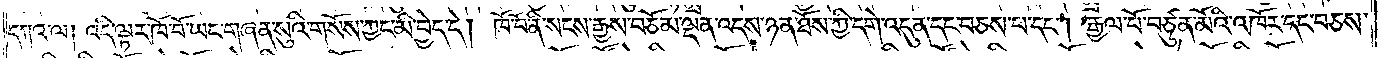དཀའ་ལ། འདི་ལྟར་ཁོ་བོ་ཡང་གཞན་སུའི་གསོས་ཀྱང་མི་བྱེད་དེ། ཁོ་བོ་ནི་སངས་རྒྱས་བཅོམ་ལྡན་འདས་ཉན་ཐོས་ཀྱི་དགེ་འདུན་དང་བཅས་པ་དང༌། རྒྱལ་པོ་བཙུན་མོའི་འཁོར་དང་བཅས་
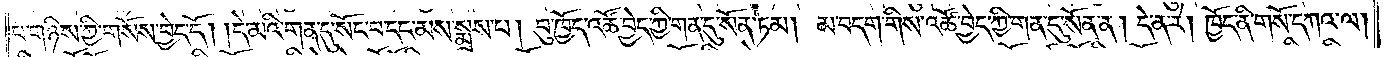པ་གཉིས་ཀྱི་གསོས་བྱེད་དོ། །དེ་མའི་གན་དུ་སོང་བ་དང་མས་སྨྲས་པ། བུ་ཁྱོད་འཚོ་བྱེད་ཀྱི་གན་དུ་སོན་ཏམ། མ་བདག་གིས་འཚོ་བྱེད་ཀྱི་གན་དུ་སོན་ན། དེ་ན་རེ། ཁྱོད་ནི་གསོ་དཀའ་ལ།
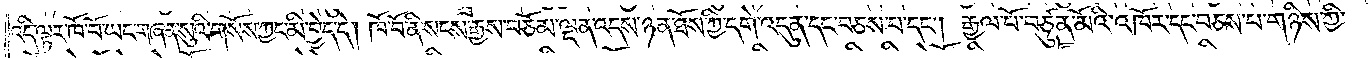འདི་ལྟར་ཁོ་བོ་ཡང་གཞན་སུའི་གསོས་ཀྱང་མི་བྱེད་དེ། ཁོ་བོ་ནི་སངས་རྒྱས་བཅོམ་ལྡན་འདས་ཉན་ཐོས་ཀྱི་དགེ་འདུན་དང་བཅས་པ་དང༌། རྒྱལ་པོ་བཙུན་མོའི་འཁོར་དང་བཅས་པ་གཉིས་ཀྱི་
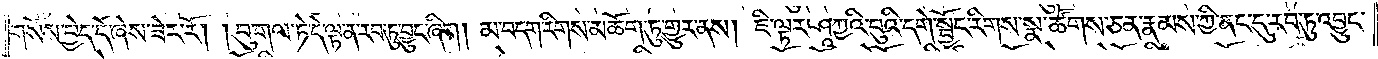གསོས་བྱེད་དོ་ཞེས་ཟེར་རོ། །བུ་གལ་ཏེ་དེ་ལྟ་ན་རབ་ཏུ་བྱུང་ཞིག། མ་བདག་རིགས་མཆོག་ཏུ་གྱུར་ནས། ཇི་ལྟར་ཤཱཀྱའི་བུའི་དགེ་སྦྱོང་རིགས་སྣ་ཚོགས་ཅན་རྣམས་ཀྱི་ནང་དུ་རབ་ཏུ་འབྱུང་
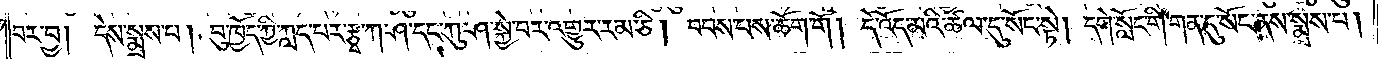བར་བྱ། དེས་སྨྲས་པ། བུ་ཁྱོད་ཀྱི་ཀླད་པར་རྩྭ་ཀ་ཤ་དང་ཀུ་ཤ་སྐྱེ་བར་འགྱུར་རམ་ཅི། བབས་པས་ཆོག་གོ། དེ་འོད་མའི་ཚལ་དུ་སོང་སྟེ། དགེ་སློང་གི་གན་དུ་སོང་ནས་སྨྲས་པ།
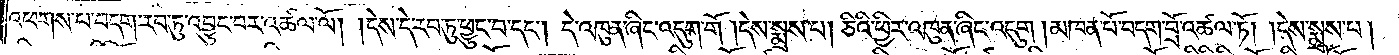འཕགས་པ་བདག་རབ་ཏུ་འབྱུང་བར་འཚལ་ལོ། །དེས་དེ་རབ་ཏུ་ཕྱུང་བ་དང༌། དེ་འཁུན་ཞིང་འདུག་གོ །དེས་སྨྲས་པ། ཅིའི་ཕྱིར་འཁུན་ཞིང་འདུག །མཁན་པོ་བདག་བྲོ་འཚལ་ཏོ། །དེས་སྨྲས་པ།
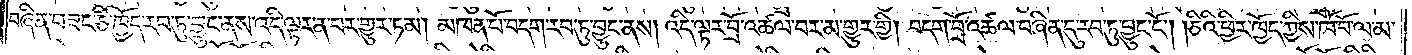བཞིན་བཟང་ཅི་ཁྱོད་རབ་ཏུ་བྱུང་ནས་འདི་ལྟར་ན་པར་གྱུར་ཏམ། མཁན་པོ་བདག་རབ་ཏུ་བྱུང་ནས། འདི་ལྟར་བྲོ་འཚལ་བར་མ་གྱུར་གྱི། བདག་བྲོ་འཚལ་བཞིན་དུ་རབ་ཏུ་བྱུང་ངོ༌། །ཅིའི་ཕྱིར་ཁྱོད་ཀྱིས་ཁོ་བོ་ལ་མ་
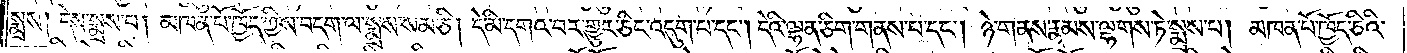སྨྲས། དེས་སྨྲས་པ། མཁན་པོ་ཁྱོད་ཀྱིས་བདག་ལ་སྨྲས་སམ་ཅི། དེ་མི་དགའ་བར་གྱུར་ཅིང་འདུག་པ་དང༌། དེའི་ལྷན་ཅིག་གནས་པ་དང༌། ཉེ་གནས་རྣམས་ལྷགས་ཏེ་སྨྲས་པ། མཁན་པོ་ཁྱོད་ཅིའི་
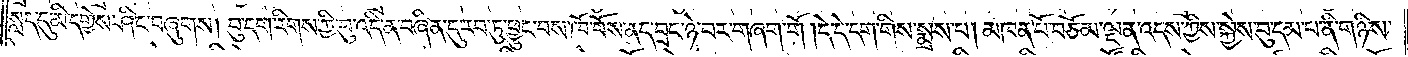སླད་དུ་མི་དགྱེས་ཤིང་བཞུགས། བུ་དག་རིགས་ཀྱི་བུ་འདི་ན་བཞིན་དུ་རབ་ཏུ་ཕྱུང་བས་ཁོ་བོས་ནད་བྲང་ཉེ་བར་གཞག་གོ །དེ་དེ་དག་གིས་སྨྲས་པ། མཁན་པོ་བཅོམ་ལྡན་འདས་ཀྱིས་སྐྱེས་བུ་དམ་པ་ནི་གཉིས་
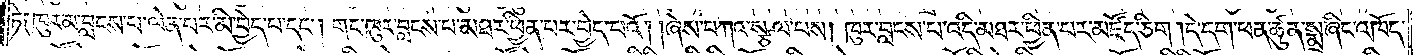ཏེ༑ ཁུར་མ་བླངས་པ་ལེན་པར་མི་བྱེད་པ་དང༌། གང་ཁུར་བླངས་པ་མཐར་ཕྱིན་པར་བྱེད་པའོ། །ཞེས་བཀའ་སྩལ་པས། ཁུར་བླངས་པ་འདི་མཐར་ཕྱིན་པར་མཛོད་ཅིག །དེ་དག་ཕན་ཚུན་སྨྲ་ཞིང་འཁོད་
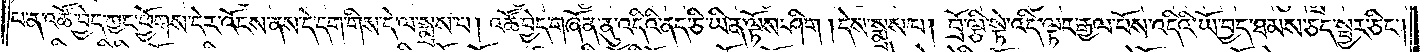པ་ན་འཚོ་བྱེད་ཀྱང་ཕྱོགས་དེར་འོངས་ནས་དེ་དག་གིས་དེ་ལ་སྨྲས་པ། འཚོ་བྱེད་གཞོན་ནུ་འདིའི་ནད་ཅི་ཡིན་ལྟོས་ཤིག །དེས་སྨྲས་པ། བྲོ་ལྕི་སྟེ་འདི་ལྟར་རྒྱལ་པོས་འདིའི་ཡོ་བྱད་ཐམས་ཅད་སྦྱར་ཅིང༌།
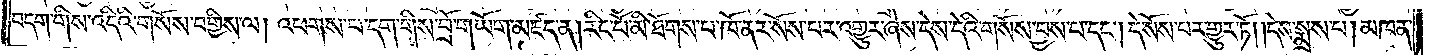བདག་གིས་འདིའི་གསོས་བགྱིས་ལ། འཕགས་པ་དག་གིས་བྲོ་གཡོག་མཛད་ན། རིང་པོ་མི་ཐོགས་པ་ཁོ་ནར་སོས་པར་འགྱུར་ཞེས་དེས་དེའི་གསོས་བྱས་པ་དང༌། དེ་སོས་པར་གྱུར་ཏོ། །དེས་སྨྲས་པ། མཁན་
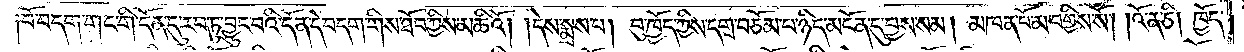པོ་བདག་གང་གི་དོན་དུ་རབ་ཏུ་བྱུང་བའི་དོན་དེ་བདག་གིས་ཐོབ་ཀྱིས་མཆིའོ། །དེས་སྨྲས་པ། བུ་ཁྱོད་ཀྱིས་དགྲ་བཅོམ་པ་ཉིད་མངོན་དུ་བྱས་སམ། མཁན་པོ་མ་བགྱིས་སོ། །འོ་ན་ཅི། ཁྱོད་
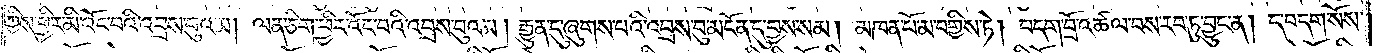ཀྱིས་ཕྱིར་མི་འོང་བའི་འབྲས་བུའམ། ལན་ཅིག་ཕྱིར་འོང་བའི་འབྲས་བུའམ། རྒྱུན་དུ་ཞུགས་པའི་འབྲས་བུ་མངོན་དུ་བྱས་སམ། མཁན་པོ་མ་བགྱིས་ཏེ། བདག་བྲོ་འཚལ་བས་རབ་ཏུ་བྱུང་ན། ད་བདག་སོས་
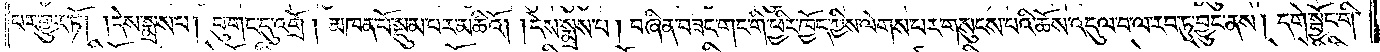པར་གྱུར་ཏོ། །དེས་སྨྲས་པ། བུ་གང་དུ་འགྲོ། མཁན་པོ་སྡུམ་པར་མཆིའོ། །དེས་སྨྲས་པ། བཞིན་བཟང་གང་གི་ཕྱིར་ཁྱོད་ཀྱིས་ལེགས་པར་གསུངས་པའི་ཆོས་འདུལ་བ་ལ་རབ་ཏུ་བྱུང་ནས། དགེ་སྦྱོང་གི་
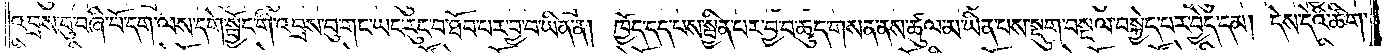འབྲས་བུ་བཞི་པོ་དག་ལས་དགེ་སྦྱོང་གི་འབྲས་བུ་གང་ཡང་རུང་བ་ཐོབ་པར་བྱ་བ་ཡིན་ནོ། ཁྱོད་དད་པས་སྦྱིན་པར་བྱ་བ་ཆུད་གསན་ནས་ཚུལ་མ་ཡིན་པས་སྡུག་བསྔལ་བསྐྱེད་པར་བྱེད་དམ། དེས་དེའི་ཚིག་
